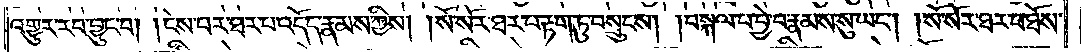འགྱུར་རབ་བྱུང་བ། །ངེས་པར་ཐར་པ་འདོད་རྣམས་ཀྱིས། །སོ་སོར་ཐར་པ་རྟག་ཏུ་བསྲུངས། །བསྐལ་པ་བྱེ་བ་རྣམས་སུ་ཡང༌། །སོ་སོར་ཐར་པ་ཐོས་
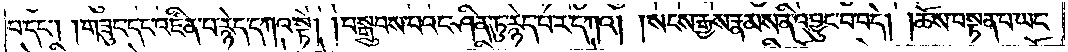པ་དང༌། །གཟུང་དང་འཛིན་པ་རྙེད་དཀའ་སྟེ། །བསྒྲུབས་པའང་ཤིན་ཏུ་རྙེད་པར་དཀའ། །སངས་རྒྱས་རྣམས་ནི་འབྱུང་བ་བདེ། །ཆོས་བསྟན་པ་ཡང་
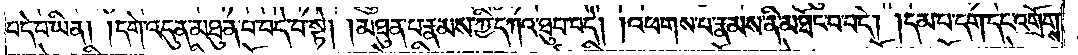བདེ་བ་ཡིན། །དགེ་འདུན་མཐུན་པ་བདེ་བ་སྟེ། །མཐུན་པ་རྣམས་ཀྱི་དཀའ་ཐུབ་བདེ། །འཕགས་པ་རྣམས་ནི་མཐོང་བ་བདེ། །དམ་པ་དག་དང་འགྲོགས་
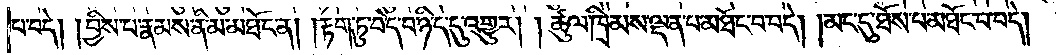པ་བདེ། །བྱིས་པ་རྣམས་ནི་མ་མཐོང་ན། །རྟག་ཏུ་བདེ་བ་ཉིད་དུ་འགྱུར། །ཚུལ་ཁྲིམས་ལྡན་པ་མཐོང་བ་བདེ། །མང་དུ་ཐོས་པ་མཐོང་བ་བདེ། །
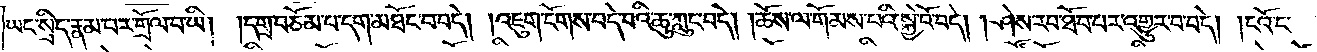ཡང་སྲིད་རྣམ་པར་གྲོལ་བ་ཡི། །དགྲ་བཅོམ་པ་དག་མཐོང་བ་བདེ། །འཇུག་ངོགས་བདེ་བའི་ཆུ་ཀླུང་བདེ། །ཆོས་ལ་གོམས་པའི་སྐྱེ་བོ་བདེ། །ཤེས་རབ་ཐོབ་པར་འགྱུར་བ་བདེ། །ངའོ་ང་
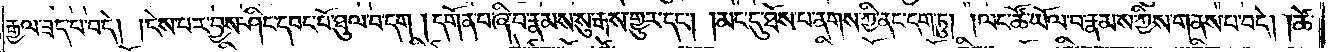རྒྱལ་ཟད་པ་བདེ། །ངེས་པར་བྱས་ཤིང་དབང་པོ་ཐུལ་བ་དག། དགོན་པ་ཞི་བ་རྣམས་སུ་རྒས་གྱུར་དང༌། །མང་དུ་ཐོས་པ་ནགས་ཀྱི་ནང་དག་ཏུ། །ལང་ཚོ་ཡོལ་བ་རྣམས་ཀྱིས་གནས་པ་བདེ། །ཚེ་
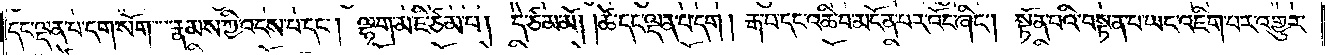དང་ལྡན་པ་དག་སོག་རྣམས་ཀྱི་འདས་པ་དང༌། ལྷག་མ་ཇི་ཙམ་པ། དེ་ཙམ་མོ། །ཚེ་དང་ལྡན་པ་དག། རྒ་བ་དང་འཆི་བ་མངོན་པར་འོང་ཞིང༌། སྟོན་པའི་བསྟན་པ་ཡང་འཇིག་པར་འགྱུར་
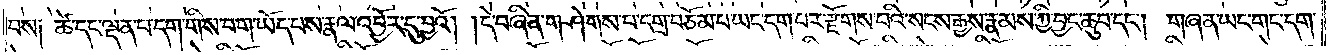བས༑ ཚེ་དང་ལྡན་པ་དག་གིས་བག་ཡོད་པས་རྣལ་འབྱོར་དུ་བྱའོ། །དེ་བཞིན་གཤེགས་པ་དགྲ་བཅོམ་པ་ཡང་དག་པར་རྫོགས་པའི་སངས་རྒྱས་རྣམས་ཀྱི་བྱང་ཆུབ་དང༌། གཞན་ཡང་གང་དག་
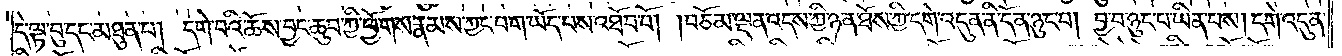དེ་ལྟ་བུ་དང་མཐུན་པ། དགེ་བའི་ཆོས་བྱང་ཆུབ་ཀྱི་ཕྱོགས་རྣམས་ཀྱང་བག་ཡོད་པས་འཐོབ་བོ། །བཅོམ་ལྡན་འདས་ཀྱི་ཉན་ཐོས་ཀྱི་དགེ་འདུན་ནི་དོན་ཉུང་བ། བྱ་བ་ཉུང་བ་ཡིན་པས། དགེ་འདུན་
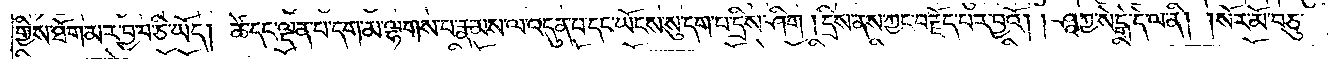གྱིས་ཐོག་མར་བྱ་བ་ཅི་ཡོད། ཚེ་དང་ལྡན་པ་དག་མ་ལྷགས་པ་རྣམས་ལ་འདུན་པ་དང་ཡོངས་སུ་དག་པ་དྲིས་ཤིག །དྲིས་ནས་ཀྱང་བརྗོད་པར་བྱའོ། །ཤཱཀྱ་སེངྒེ་དེ་ལ་ནི། །སོར་མོ་བཅུ་
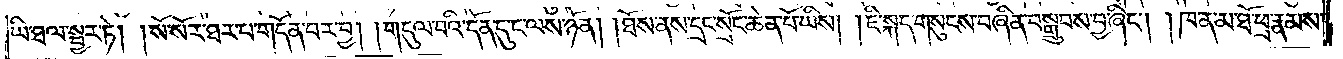ཡི་ཐལ་སྦྱར་ཏེ། །སོ་སོར་ཐར་པ་གདོན་བར་བྱ། །གདུལ་བའི་དོན་དུ་ང་ལས་ཉོན། །ཐོས་ནས་དྲང་སྲོང་ཆེན་པོ་ཡིས། །ཇི་སྐད་གསུངས་བཞིན་བསྒྲུབས་བྱ་ཞིང༌། །ཁ་ན་མ་ཐོ་ཕྲ་རྣམས་
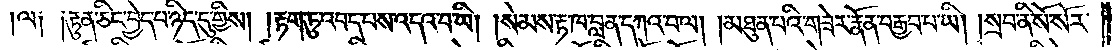ལ༑ ༑རྟུན་ཅིང་བྱེད་པ་ཉིད་དུ་གྱིས། །རྟག་ཏུ་འབད་པས་འདའ་བ་ཡི། །སེམས་རྟ་ཁ་བླན་དཀའ་བ་ལ། །མཐུན་པའི་གཟེར་རྣོན་བརྒྱབ་པ་ཡི། །སྲབ་ནི་སོ་སོར་
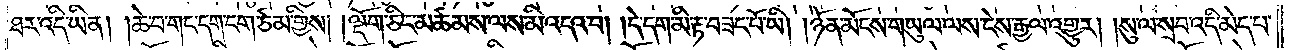ཐར་འདི་ཡིན། །ཆེ་བ་གང་དག་ངག་ཙམ་གྱིས། །ལྡོག་ཅིང་མཚམས་ལས་མི་འདའ་བ། །དེ་དག་མི་རྟ་བཟང་པོ་ཡི། །ཉོན་མོངས་གཡུལ་ལས་ངེས་རྒྱལ་འགྱུར། །སུ་ལ་སྲབ་འདི་མེད་པ་
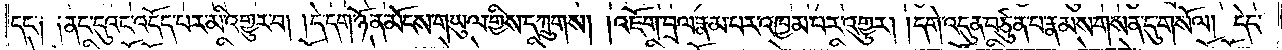དང་༑ ༑ནང་དུའང་འདོད་པར་མི་འགྱུར་བ། །དེ་དག་ཉོན་མོངས་གཡུལ་གྱིས་དཀྲུགས། །འཇོག་བྲལ་རྣམ་པར་འཁྱམ་པར་འགྱུར། །དགེ་འདུན་བཙུན་པ་རྣམས་གསན་དུ་གསོལ། དེང་
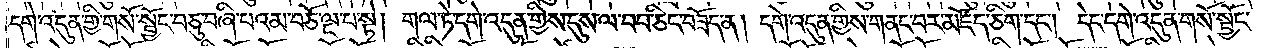དགེ་འདུན་གྱི་གསོ་སྦྱོང་བཅུ་བཞི་པའམ་བཅོ་ལྔ་པ་སྟེ། གལ་ཏེ་དགེ་འདུན་གྱིས་དུས་ལ་བབ་ཅིང་བཟོད་ན། དགེ་འདུན་གྱིས་གནང་བར་མཛོད་ཅིག་དང༌། དེང་དགེ་འདུན་གསོ་སྦྱོང་
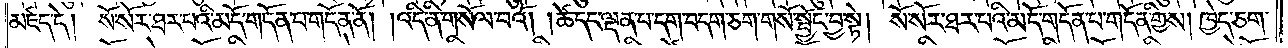མཛད་དེ། སོ་སོར་ཐར་པའི་མདོ་གདོན་པ་གདོན་ནོ། །འདི་ནི་གསོལ་བའོ། །ཚེ་དང་ལྡན་པ་དག་བདག་ཅག་གསོ་སྦྱོང་བྱ་སྟེ། སོ་སོར་ཐར་པའི་མདོ་གདོན་པ་གདོན་གྱིས། ཁྱེད་ཅག་
